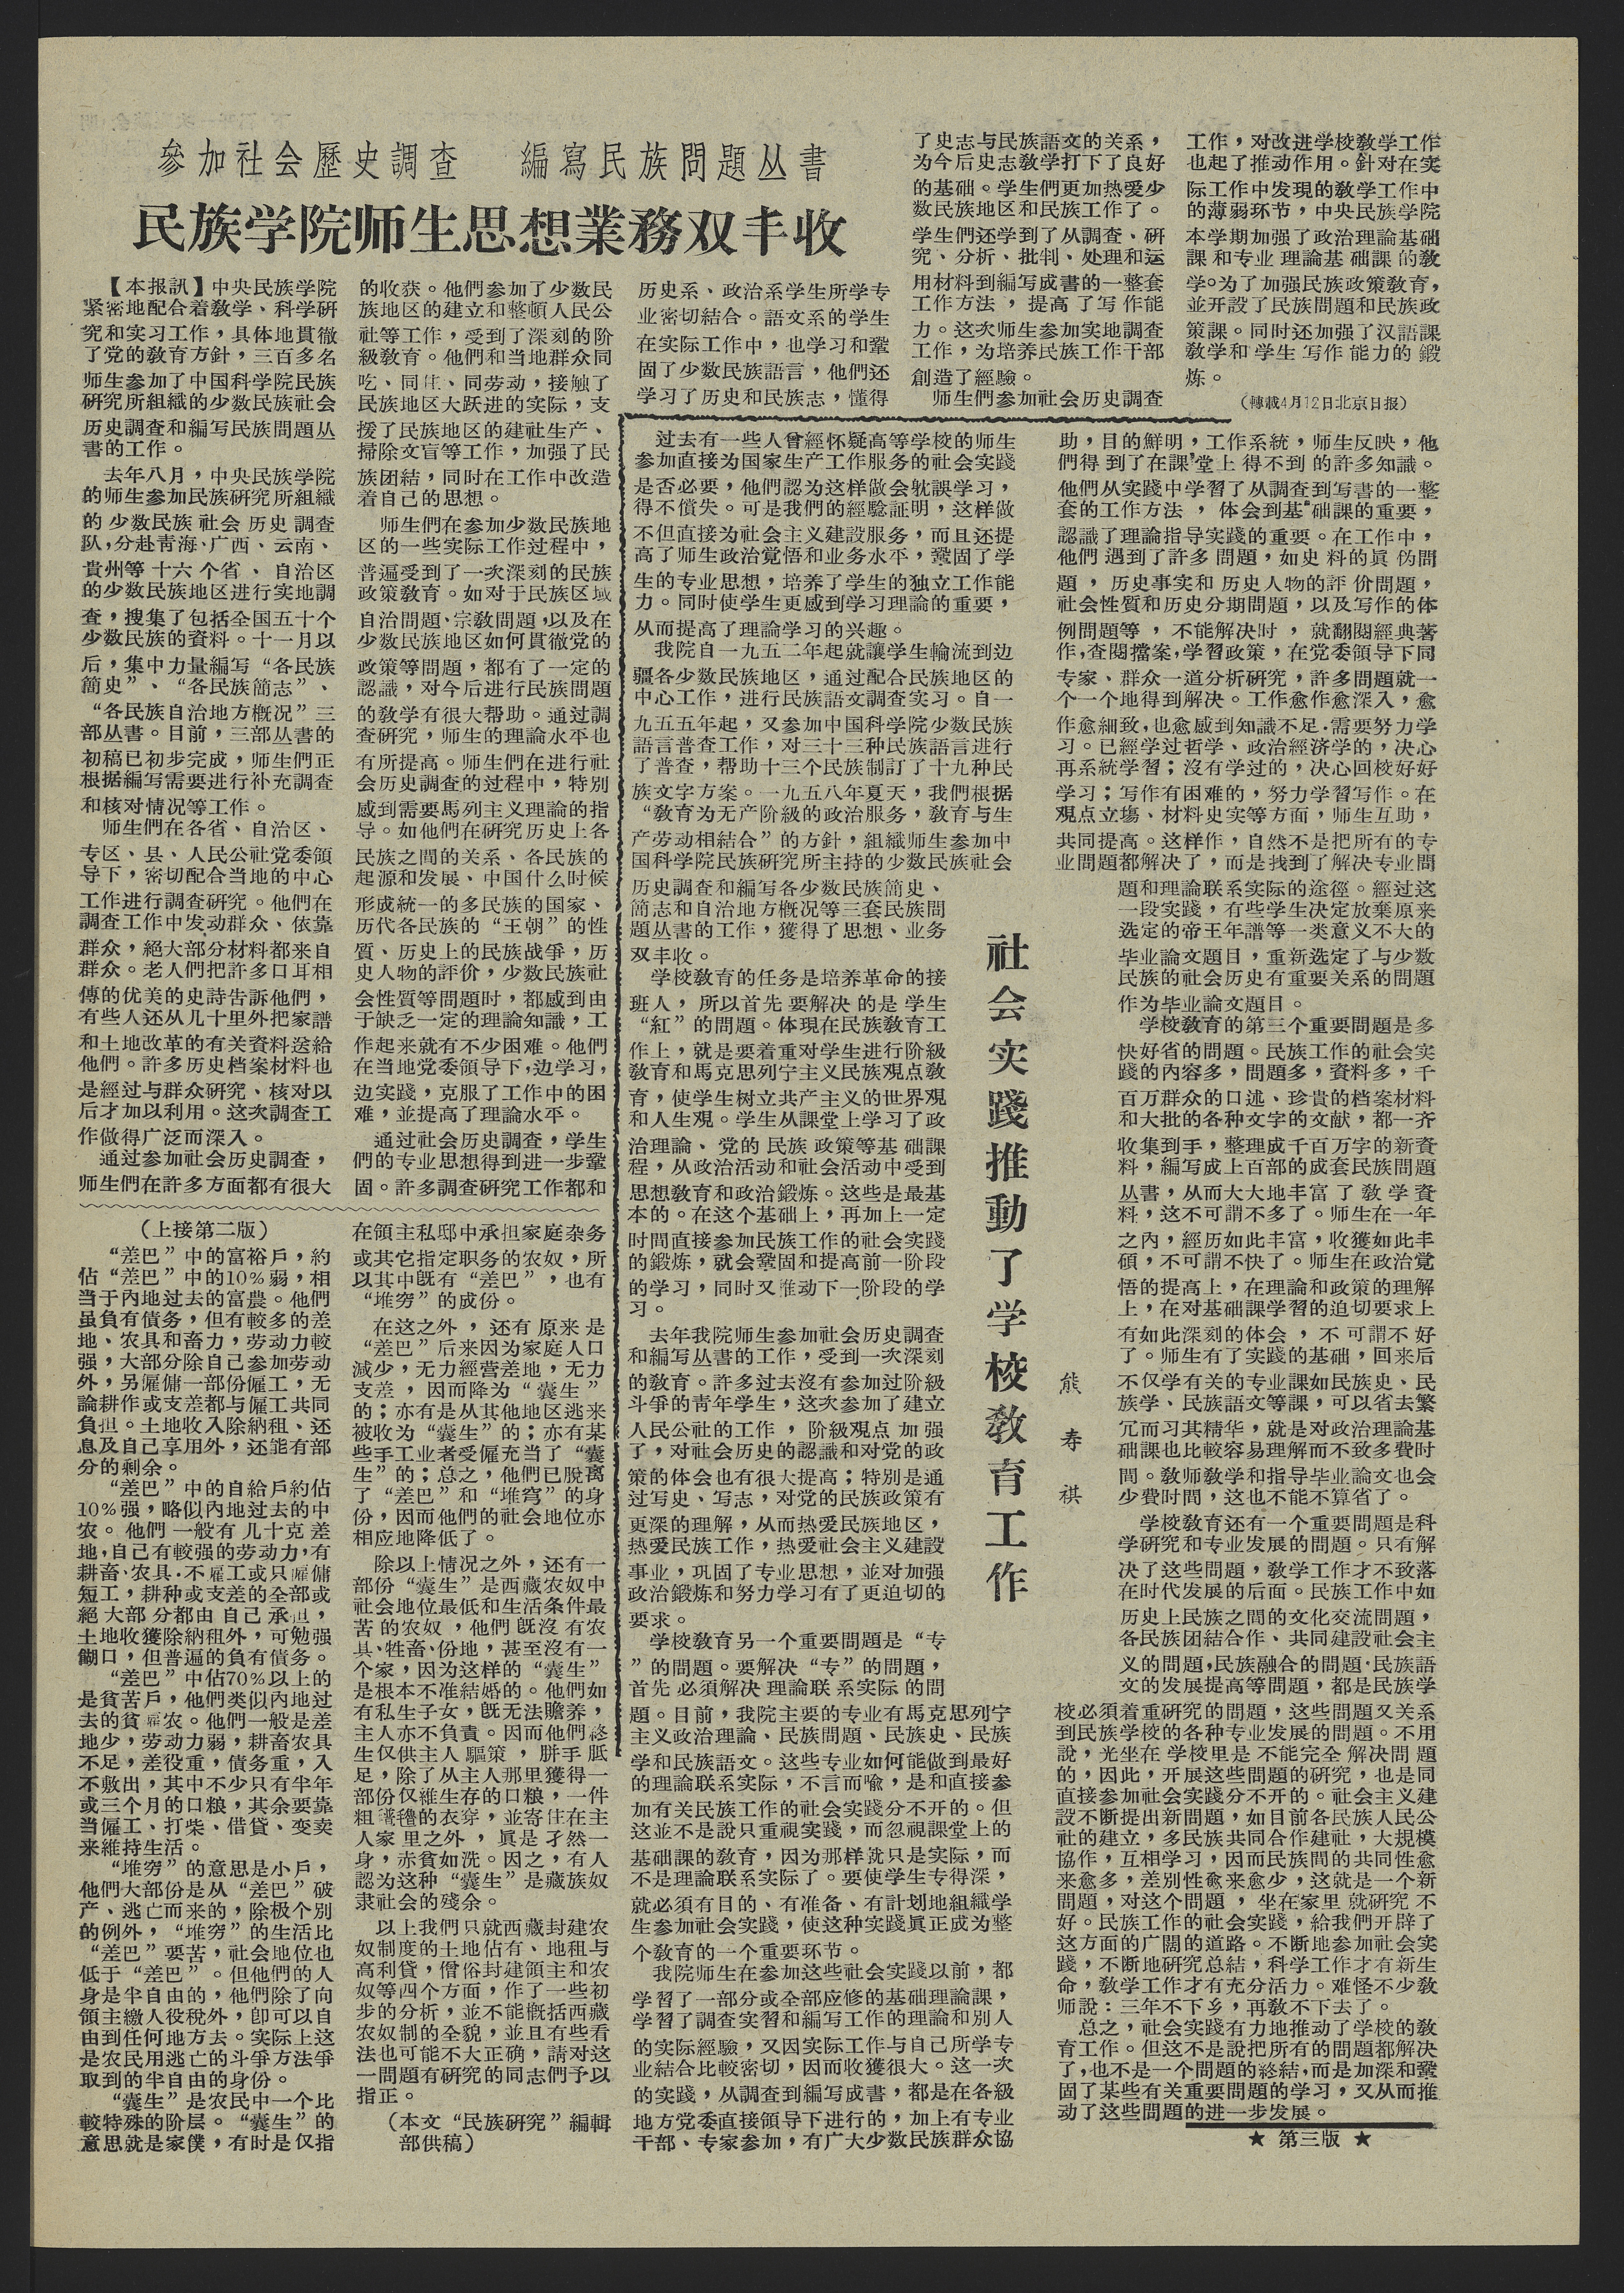參加社會歷史調查 編寫民族問題丛書
民族学院师生思想業務双丰收
【本报訊】中央民族学院
紧密地配合着敎学、科学研
究和实习工作，具体地貫徹
了党的敎育方針，三百多名
师生参加了中国科学院民族
研究所組織的少数民族社会
历史調查和編写民族問題丛
書的工作。
去年八月，中央民族学院
的师生参加民族研究所組織
的少数民族社会历史調查
队，分赴靑海、广西、云南、
貴州等十六个省、自治区
的少数民族地区进行实地調
查，搜集了包括全国五十个
少数民族的資料。十一月以
后，集中力量編写“各民族
簡史”、“各民族簡志”、
“各民族自治地方概况”三
部丛書。目前，三部丛書的
初稿已初步完成，师生們正
根据編写需要进行补充調查
和核对情况等工作。
师生們在各省、自治区、
专区、县、人民公社党委領
导下，密切配合当地的中心
工作进行調查研究。他們在
調查工作中发动群众、依靠
群众，絕大部分材料都来自
群众。老人們把許多口耳相
傳的优美的史詩告訴他們，
有些人还从几十里外把家譜
和土地改革的有关資料送給
他們。許多历史胆敢材料也
是經过与群众研究、核对以
后才加以利用。这次調查工
作做得广泛而深入。
通过参加社会历史調查，
师生們在許多方面都有很大
的收获。他們参加了少数民
族地区的建立和整頓人民公
社等工作，受到了深刻的阶
級敎育。他們和当地群众同
吃、同住、同劳动，接触了
民族地区大跃进的实际，支
援了民族地区的建社生产、
掃除文盲等工作，加强了民
族团結，同时在工作中改造
着自己的思想。
师生們在参加少数民族地
区的一些实际工作过程中，
普遍受到了一次深刻的民族
政策敎育。如对于民族区域
自治問題、宗敎問題，以及在
少数民族地区如何貫徹党的
政策等問題，都有了一定的
認識，对今后进行民族問題
的敎学有很大帮助。通过調
查研究，师生的理論水平也
有所提高。师生們在进行社
会历史調查的过程中，特别
感到需要馬列主义理論的指
导。如他們在研究历史上各
民族之間的关系、各民族的
起源和发展、中国什么时候
形成統一的多民族的国家、
历代各民族的“王朝”的性
質、历史上的民族战爭，历
史人物的評价，少数民族社
会性質等問題时，都感到由
于缺乏一定的理論知識，工
作起来就有不少困难。他們
在当地党委領导下，边学习，
边实踐，克服了工作中的困
难，並提高了理論水平。
通过社会历史調查，学生
們的专业思想得到进一步鞏
固。許多調查研究工作都和
历史系、政治系学生所学专
业密切結合。語文系的学生
在世纪工作中，也学习和鞏
固了少数民族語言，他們还
学习了历史和民族志，懂得
了史志与民族語文的关系，
为今后史志敎学打下了良好
的基础。学生們更加热爱少
数民族地区和民族工作了。
学生們还学到了从調查、研
究、分析、批判、处理和运
用材料到編写成書的一整套
工作方法，提高了写作能
力。这次师生参加实地調查
工作，为培养民族工作干部
創造了經驗。
师生們参加社会历史調查
工作，对改进学校敎学工作
也起了推动作用。針对在实
际工作中发現的敎学工作中
的薄弱环节，中央民族学院
本学期加强了政治理論基础
課和专业理論基础課的敎
学。为了加强民族政策敎育，
並开設了民族問題和民族政
策課。同时还加强了汉語課
敎学和学生协作能力的鍛
炼。
（轉載4月12日北京日报）
（上接第二版）
“差巴”中的富裕戶，約
佔“差巴”中的10％弱，相
当于内地过去的富農。他們
虽負有債务，但有較多的差
地、农具和畜力，劳动力較
强，大部分除自己参加劳动
外，另僱傭一部分僱工，无
論耕作或支差都与僱工共同
負担。土地收入除納租、还
息及自己享用外，还能有部
分的剩余。
“差巴”中的自給戶約佔
10％强，略似内地过去的中
农。他們一般有几十克差
地，自己有較强的劳动力，有
耕畜、农具，不僱工或只僱傭
短工，耕种或支差的全部或
絕大部分都由自己承担，
土地收穫除納租外，可勉强
餬口，但普遍的負有債务。
“差巴”中佔70％以上的
是貧苦戶，他們类似内地过
去的貧僱农。他們一般是差
地少，劳动力弱，耕畜农具
不足，差役重，債务重，入
不敷出，其中不少只有半年
或三个月的口粮，其余要靠
当僱工、打柴、借貸、变卖
来維持生活。
“堆穷”的意思是小戶，
他們大部份是从“差巴”破
产、逃亡而来的，除极个别
的里外，“堆穷”的生活比
“差巴”要苦，社会地位也
低于“差巴”。但他們的人
身是半自由的，他們除了向
領主繳人役稅外，卽可以自
由到任何地方去。实际上这
是农民用逃亡的斗爭方法爭
取到的半自由的身份。
“囊生”是农民中一个比
較特殊的阶层。“囊生”的
意思就是家僕，有时是仅指
在領主私邸中承担家庭杂务
或其他指定职务的农奴，所
以其中旣有“差巴”，也有
“堆穷”的成份。
在这之外，还有原来是
“差巴”后来因为家庭人口
減少，无力經营差地，无力
支差，因而降为“囊生”
的；亦有是从其他地区逃来
被收为“囊生”的；亦有某
些手工业者受僱虫当了“囊
生”的；总支，他們已脱离
了“差巴”和“堆穹”的身
份，因而他們的社会地位亦
相应地降低了。
除以上情况之外，还有一
部份“囊生”是西藏农奴中
社会地位最低和生活条件最
苦的农奴，他們旣沒有农
具、牲畜、份地，甚至沒有一
个家，因为这样的“囊生”
是根本不准結婚的。他們如
有私生子女，旣无法贍养，
主任亦不負責。因而他們終
省仅供主人驅策，胼手胝
足，除了从主人那里獲得一
部份仅維生存的口粮，一件
粗氆氌的衣穿，並寄住在主
人家里之外，眞是孑然一
身，赤貧如洗。因之，有人
認为这种“囊生”是藏族奴
隶社会的殘余。
以上我們只就西藏封建农
奴制度的土地佔有、地租与
高利貸，僧俗封建領主和农
奴等四各方面，作了一些初
步的分析，並不能概括西藏
农奴制的全貌，並且有些看
法也可能不大正确，請对这
一問題有研究的同志們予以
指正。
（本文“民族研究”編輯
部供稿）
社会實踐推動了学校敎育工作
熊 寿 祺
过去有一些人曾經怀疑高等学校的师生
参加直接为国家生产工作服务的社会实踐
是否必要，他們認为这样做会躭誤学习，
得不償失。可是我們的經騐証明，这样做
不但直接为社会主义建設服务，而且还提
高了师生政治覚悟和业务水平，鞏固了学
生的专业思想，培养了学生的独立工作能
力。同时使学生更感到学习理論的重要，
从而提高了理論学习的兴趣。
我院自一九五二年起就讓学生輪流到边
疆各少数民族地区，通过配合民族地区的
中心工作，进行民族語文調查实习。自一
九五五年起，又参加中国科学院少数民族
語言普查工作，对三十三种民族語言进行
了普查，帮助十三个民族制訂了十九种民
族文字方案。一九五八年夏天，我們根据
“敎育为无产阶級的政治服务，敎育与生
产劳动相結合”的方針，組織师生参加中
国科学院民族研究所主持的少数民族社会
历史調查和編写各少数民族簡史、
簡志和自治地方概况等三套民族問
題丛書的工作，獲得了思想、业务
双丰收。
学校敎育的任务是培养革命的接
班人，所以首先要解决的是学生
“紅”的問題。体現在民族敎育工
作上，就是要着重对学生进行阶級
敎育和馬克思列宁主义民族覌点敎
育，使学生树立共产主义的世界覌
和人生覌。学生从課堂上学习了政
治理論、党的民族政策等基础課
程，从政治活动和社会活动中受到
思想敎育和政治鍛炼。这些是最基
本的。在这个基础上，再加上一定
实間直接参加民族工作的社会实踐
的鍛炼，就会鞏固和提高前一阶段
的学习，同时又推动下一阶段的学
习。
去年我院师生参加社会历史調查
和編写丛書的工作，受到一次深刻
的敎育。許多沒有参加过阶級
斗爭的靑年学生，这次参加了建立
人民公社的工作，阶級覌点加强
了，对社会历史的認識和对党的政
策的体会也有很大提高；特别是通
过写史、写志，对党的民族政策有
更深的理解，从而热爱民族地区，
热爱民族工作，热爱社会主义建設
事业，巩固了专业思想，並对加强
政治鍛炼和努力学习有了更迫切的
要求。
学习敎育另一个重要問題是“专
”的問題。要解决“专”的問題，
首先必須解决理論联系实际的問
題。目前，我院主要的专业有馬克思列宁
主义政治理論、民族問題、民族史、民族
学和民族語文。这些专业如何能做到最好
的理論联系实际，不言而喻，是和直接参
加有关民族工作的社会实踐分不开的。但
这並不是說只重視实踐，而忽視課堂上的
基础課的敎育，因为那样就只是实际，而
不是理論联系实际了。要使学生专得深，
就必須有目的、有准备、有計划地組織学
省参加社会实踐，使这种实踐眞正成为整
个敎育的一个重要环节。
我院师生在参加这些社会实踐以前，都
学習了一部分或全部应修的基础理論課，
学習了調查实習和編写工作的理論和别人
的实际經驗，又因实际工作与自己所学专
业結合比較密切，因而收穫很大。这一次
的实踐，从調查到編写成書，都是在各級
地方党委直接領导下进行的，加上有专业
干部、专家参加，有广大少数民族群众協
助，目的鮮明，工作系統，师生反映，他
們得到了在課堂上得不到的許多知識。
他們从实踐中学習了从調查到写書的一整
套的工作方法，体会到基础課的重要，
認識了理論指导实踐的重要。在工作中，
他們遇到了許多問題，如史料的眞伪問
題，历史事实和历史任务的評价問題，
社会性質和历史分期問題，以及写作的体
例問題等，不能解决时，就翻閱經典著
作，查閱擋案，学習政策，在党委領导下同
专家、群众一道分析研究，許多問題就一
个一个地得到解决。工作愈作愈深入，愈
作愈細致，也愈感到知識不足，需要努力学
习。已經学过哲学、政治經济学的，决心
再系統学習；沒有学过的，决心回校好好
学习；写作有困难的，努力学習写作。在
覌点立塲、材料史实等方面，师生互助，
共同提高。这样作，自然不是把所有的专
业問題都解决了，而是找到了解决专业問
題和理論联系实际的途徑。經过这
一段实踐，有些学生决定放棄原来
选定的帝王年譜等一类意义不大的
毕业論文題目，重新选定了与少数
民族的社会历史有重要关系的問題
作为毕业論文題目。
学习敎育的第三个重要問題是多
快好省的問題。民族工作的社会实
踐的內容多，問題多，資料多，千
百万群众的口述、珍貴的档案材料
和大批的各种文字的文献，都一齐
收集到手，整理成千百万字的新資
料，編写成上百部的成套民族問題
丛書，从而大大地丰富了敎学資
料，这不可謂不多了。师生在一年
之内，經历如此丰富，收穫如此丰
碩，不可謂不快了。师生在政治覚
悟的提高上，在理論和政策的理解
上，在对基础課学習的迫切要求上
有如此深刻地体会，不可謂不好
了。师生有了实踐的基础，回来后
不仅学有关的专业課如民族史、民
族学、民族語文等課，可以省去繁
冗而习其精华，就是对政治理論基
础課也比較容易理解而不致多费时
間。敎师敎学和指导毕业論文也会
少費时間，这也不能不算省了。
学校敎育还有一个重要問題是科
学研究和专业发展的問題。只有解
决了这些問題，敎学工作才不致落
在时代发展的后面。民族工作中如
历史上民族之間的文化交流問題，
各民族团結合作、共同建設社会主
义的問題，民族融合的問題。民族語
文的发展提高等問題，都是民族学
校必須着重研究的問題，这些問題又关系
到民族学校的各种专业发展的問題。不用
說，光坐在学校里是不能完全解决問題
的，因此，开展这些問題的研究，也是同
直接参加社会实踐分不开的。社会主义建
設不断提出新問題，如目前各民族人民公
社的建立，多民族共同合作建社，大規模
協作，互相学习，因而民族間的共同性愈
来愈多，差别行愈来愈少，这就是一个新
問題，对这个問題，坐在家里就研究不
好。民族工作的社会实踐，給我們开辟了
这方面的广闊的道路。不断地参加社会实
踐，不断地研究总結，科学工作才有新生
命，敎学工作才有充分活动。难怪不少敎
师說：三年不下乡，再敎不下去了。
总支，社会实踐有力地推动了学校的敎
育工作。但这不是說把所有的問題都解决
了，也不是一个問題的終結，而是加深和鞏
固了某些有关重要問題的学习，又从而推
动了这些問題的进一步发展。
★ 第三版 ★
